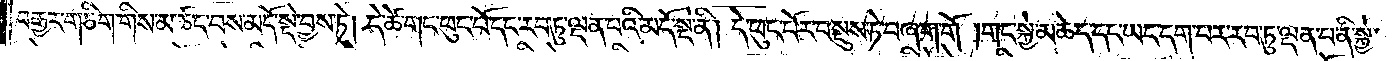བརྒྱར་གཅིག་གིས་མ་ཚང་བས་མདོ་སྡེ་བྱས་ཏེ། དེ་ཚེ་གང་ཕུང་པོ་དང་རབ་ཏུ་ལྡན་པའི་མདོ་སྡེ་ནི། དེ་ཕུང་པོར་བསྡུས་ཏེ་བཞག་གོ །གང་སྐྱེ་མཆེད་དང་ཡང་དག་པར་རབ་ཏུ་ལྡན་པ་ནི་སྐྱེ་
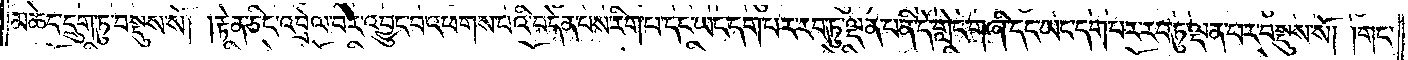མཆེད་དྲུག་ཏུ་བསྡུས་སོ། །རྟེན་ཅིང་འབྲེལ་བར་འབྱུང་བ་འཕགས་པའི་བདེན་པས་རིག་པ་དང་ཡང་དག་པར་རབ་ཏུ་ལྡན་པ་ནི་དེ་གླེང་གཞི་དང་ཡང་དག་པར་རབ་ཏུ་ལྡན་པར་བསྡུས་སོ། །གང་
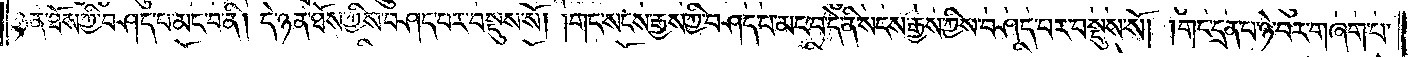ཉན་ཐོས་ཀྱི་བཤད་པ་མང་བ་ནི། དེ་ཉན་ཐོས་ཀྱིས་བཤད་པར་བསྡུས་སོ། །གང་སངས་རྒྱས་ཀྱི་བཤད་པ་མང་བ་དེ་ནི་སངས་རྒྱས་ཀྱིས་བཤད་པར་བསྡུས་སོ། །གང་དྲན་པ་ཉེ་བར་གཞག་པ་
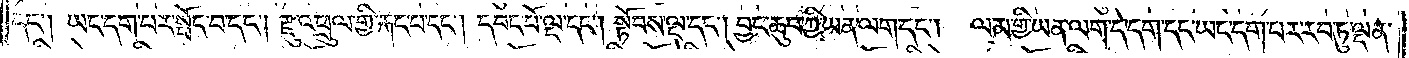དང༌། ཡང་དག་པར་སྤོང་བ་དང༌། རྫུ་འཕྲུལ་གྱི་རྐང་བ་དང༌། དབང་པོ་ལྔ་དང༌། སྟོབས་ལྔ་དང༌། བྱང་ཆུབ་ཀྱི་ཡན་ལག་དང༌། ལམ་གྱི་ཡན་ལག་དེ་དག་དང་ཡང་དག་པར་རབ་ཏུ་ལྡན་
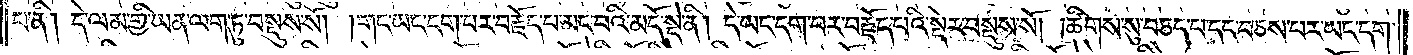པ་ནི། དེ་ལམ་གྱི་ཡན་ལག་ཏུ་བསྡུས་སོ། །གང་ཡང་དག་པར་བརྗོད་པ་མང་བའི་མདོ་སྡེ་ནི། དེ་ཡང་དག་པར་བརྗོད་པའི་སྡེར་བསྡུས་སོ། །ཚིགས་སུ་བཅད་པ་དང་བཅས་པར་ཡང་དག་
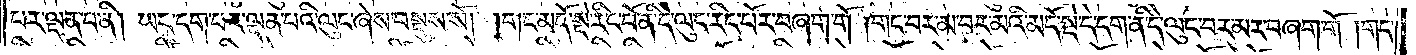པར་ལྡན་པ་ནི། ཡང་དག་པར་ལྡན་པའི་ལུང་ཞེས་བསྡུས་སོ། །གང་མདོ་སྡེ་རིང་པོ་ནི་དེ་ལུང་རིང་པོར་བཞག་གོ །གང་བར་མ་བར་མའི་མདོ་སྡེ་དེ་དག་ནི་དེ་ལུང་བར་མར་བཞག་གོ །གང་
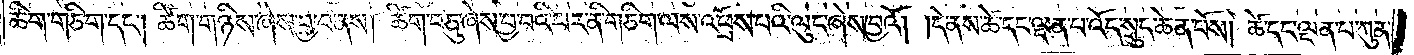ཚིག་གཅིག་དང༌། ཚིག་གཉིས་ཞེས་བྱ་བ་ནས། ཚིག་བཅུ་ཞེས་བྱ་བའི་བར་ནི་གཅིག་ལས་འཕྲོས་པའི་ལུང་ཞེས་བྱའོ། །དེ་ནས་ཚེ་དང་ལྡན་པ་འོད་སྲུང་ཆེན་པོས། ཚེ་དང་ལྡན་པ་ཀུན་
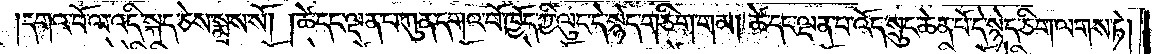།དགའ་བོ་ལ་འདི་སྐད་ཅེས་སྨྲས་སོ། །ཚེ་དང་ལྡན་པ་ཀུན་དགའ་བོ་ཁྱོད་ཀྱི་ལུང་དེ་སྙེད་གཅིག་གམ། ཚེ་དང་ལྡན་པ་འོད་སྲུང་ཆེན་པོ་དེ་སྙེད་ཅིག་ལགས་ཏེ།
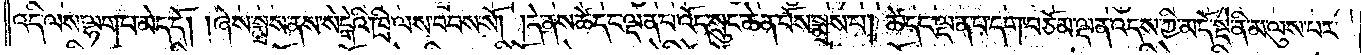འདི་ལས་ལྷག་པ་མེད་དོ། །ཞེས་སྨྲས་ནས་སེངྒེའི་ཁྲི་ལས་བབས་སོ། །དེ་ནས་ཚེ་དང་ལྡན་པ་འོད་སྲུང་ཆེན་པོས་སྨྲས་པ། ཚེ་དང་ལྡན་པ་དག་བཅོམ་ལྡན་འདས་ཀྱི་མདོ་སྡེ་ནི་མ་ལུས་པར་
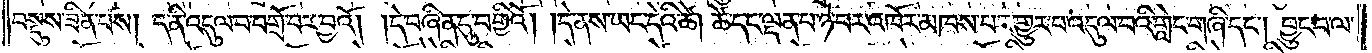བསྡུས་ཟིན་པས། ད་ནི་འདུལ་བ་བགྲོ་བར་བྱའོ། །དེ་བཞིན་དུ་བགྱིའོ། །དེ་ནས་ཡང་དེའི་ཚེ། ཚེ་དང་ལྡན་པ་ཉེ་བར་འཁོར་མཁས་པར་གྱུར་པ་འདུལ་བའི་གླེང་གཞི་དང༌། བྱུང་བ་ལ་
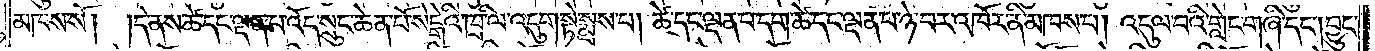མཁས་སོ། །དེ་ནས་ཚེ་དང་ལྡན་པ་འོད་སྲུང་ཆེན་པོ་སེངྒེའི་ཁྲི་ལ་འདུག་སྟེ། སྨྲས་པ། ཚེ་དང་ལྡན་པ་དག་ཚེ་དང་ལྡན་པ་ཉེ་བར་འཁོར་ནི་མཁས་པ། འདུལ་བའི་གླེང་གཞི་དང༌། བྱུང་
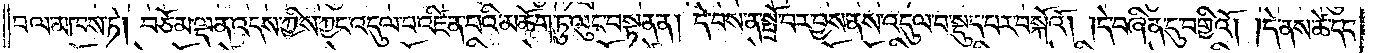བལ་མཁས་ཏེ། བཅོམ་ལྡན་འདས་ཀྱིས་ཀྱང་འདུལ་བ་འཛིན་པའི་མཆོག་ཏུ་ལུང་བསྟན་ན། དེ་བས་ན་སྤྲོ་བར་བྱས་ནས་འདུལ་བ་སྡུད་པར་བསྐོའོ། །དེ་བཞིན་དུ་བགྱིའོ། །དེ་ནས་ཚེ་དང་
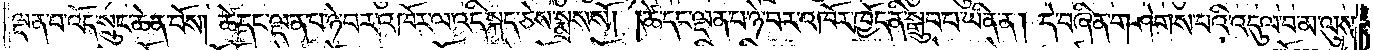ལྡན་པ་འོད་སྲུང་ཆེན་པོས། ཚེ་དང་ལྡན་པ་ཉེ་བར་འཁོར་ལ་འདི་སྐད་ཅེས་སྨྲས་སོ། །ཚེ་དང་ལྡན་པ་ཉེ་བར་འཁོར་ཁྱོད་ནི་སྒྲུབ་པ་ཡིན་ན། དེ་བཞིན་གཤེགས་པའི་འདུལ་བ་མ་ལུས་
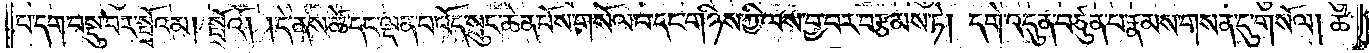པ་དག་བསྡུ་བར་སྤྲོའམ། སྤྲོའོ། །དེ་ནས་ཚེ་དང་ལྡན་པ་འོད་སྲུང་ཆེན་པོས་གསོལ་བ་དང་གཉིས་ཀྱི་ལས་བྱ་བར་བརྩམས་ཏེ། དགེ་འདུན་བཙུན་པ་རྣམས་གསན་དུ་གསོལ། ཚེ་
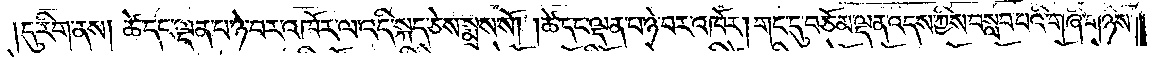དུ་རིག་ནས། ཚེ་དང་ལྡན་པ་ཉེ་བར་འཁོར་ལ་འདི་སྐད་ཅེས་སྨྲས་སོ། །ཚེ་དང་ལྡན་པ་ཉེ་བར་འཁོར། གང་དུ་བཅོམ་ལྡན་འདས་ཀྱིས་བསླབ་པའི་གཞི་གཉིས་
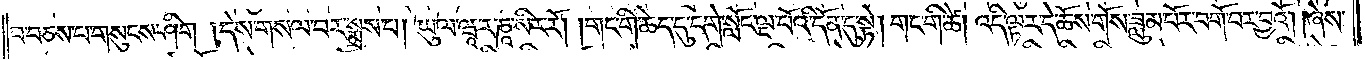པ་བཅས་པ་གསུངས་ཤིག །དེས་གསལ་བར་སྨྲས་པ། ཡུལ་ཝཱ་ར་ཎཱ་སིར་རོ། །གང་གི་ཆེད་དུ་དགེ་སློང་ལྔ་པོའི་དོན་དུ་སྟེ། གང་གི་ཚེ། འདི་ལྟར་དེ་ཆོས་གོས་ཟླུམ་པོར་བགོ་བར་བྱའོ། །ཞེས་
